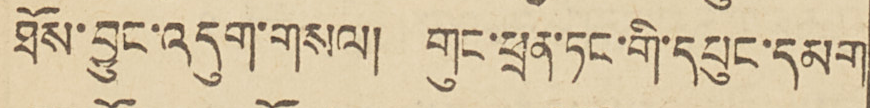ཐོས་བྱུང་འདུག་གསལ། །གུང་ཕྲན་ཏང་གི་དཔུང་དམག
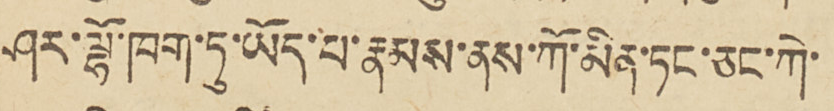ཤར་ལྷོ་ཁག་ཏུ་ཡོད་པ་རྣམས་ནས་ཀོ་མིན་ཏང་ཅང་ཀེ་
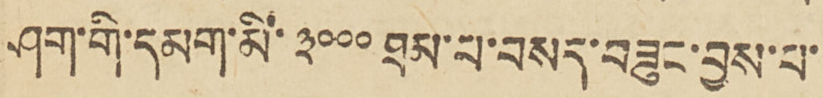ཤག་གི་དམག་མི་ ༣༠༠༠ ཐམ་པ་བསད་བཅུང་བྱས་པ་
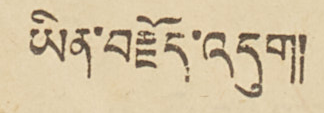ཡིན་བརྗོད་འདུག།།
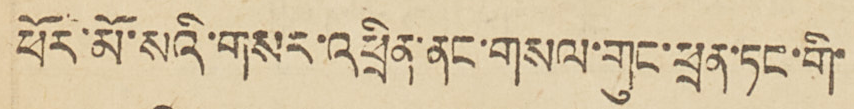ཕོར་མོ་སའི་གསར་འཕྲིན་ནང་གསལ་གུང་ཕྲན་ཏང་གི་
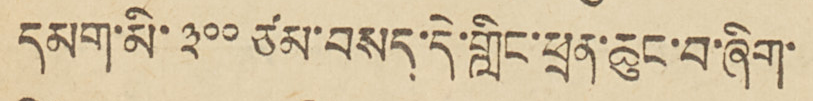དམག་མི་ ༣༠༠ ཙམ་བསད་དེ་གླིང་ཕྲན་ཆུང་བ་ཞིག་
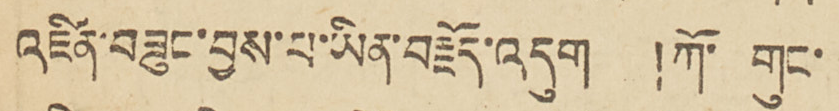འཛིན་བཟུང་བྱས་པ་ཡིན་བརྗོད་འདུག །ཀོ་གུང་
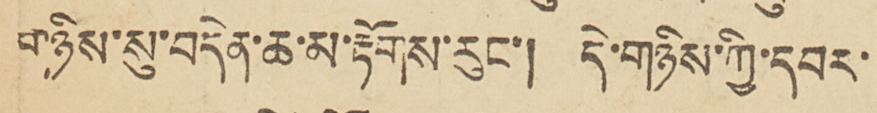གཉིས་སུ་བདེན་ཆ་མ་རྟོགས་རུང་། དེ་གཉིས་ཀྱི་དབར་
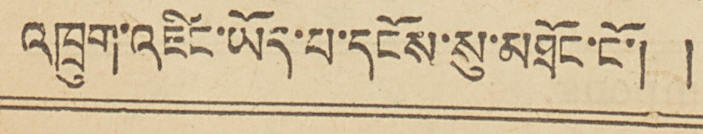འཁྲུག་འཛིན་ཡོད་པ་དངོས་སུ་མཐོང་། །
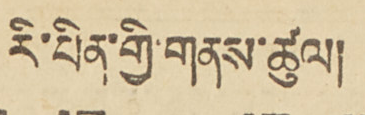རི་པིན་གྱི་གནས་ཚུལ།
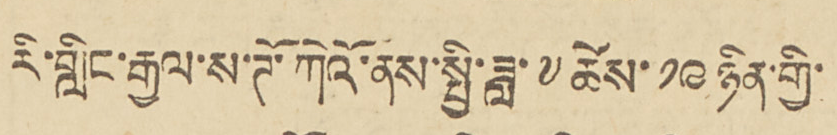རི་གླིང་རྒྱལ་ས་ཌོ་ཀེའོ་ནས་སྤྱི་ཟླ་༧ཚེས་༡༩ཉིན་གྱི་
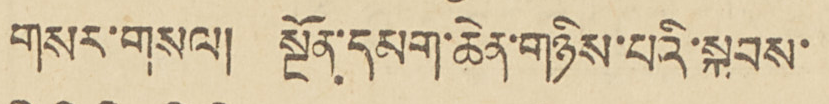གསར་གསལ། སྔོན་དམག་ཆེན་གཉིས་པའི་སྐབས་
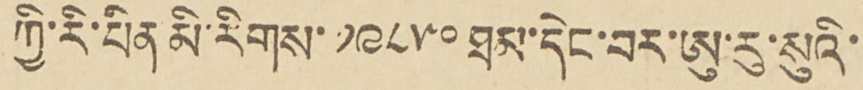ཀྱི་རི་པིན་མི་རིགས་ ༡༩༨༥༠ ཐམ་དེང་བར་ཨུ་རུ་སུའི་
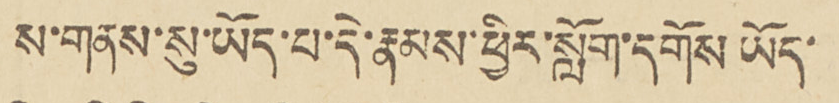ས་གནས་སུ་ཡོད་པ་དེ་རྣམས་ཕྱིར་སློག་དགོས་ཡོད་
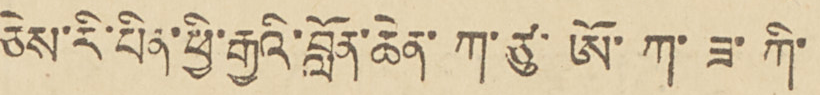ཅེས་རི་པིན་ཕྱི་རྒྱའི་བློན་ཆེན་ཀ་ཙུ་ཨོ་ཀ་ཟ་ཀི་
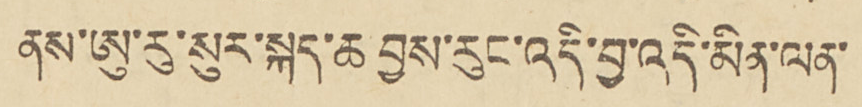ནས་ཨུ་རུ་སུར་སྐད་ཆ བྱས་རུང་འདི་བྱ་འདི་མིན་ལན་
